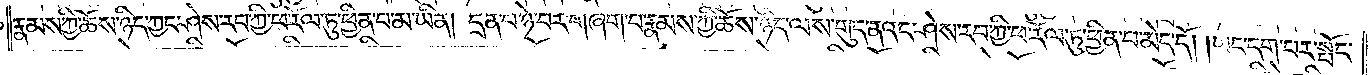རྣམས་ཀྱི་ཆོས་ཉིད་ཀྱང་ཤེས་རབ་ཀྱི་ཕ་རོལ་ཏུ་ཕྱིན་པ་མ་ཡིན། དྲན་པ་ཉེ་བར་བཞག་པ་རྣམས་ཀྱི་ཆོས་ཉིད་ལས་གུད་ནའང་ཤེས་རབ་ཀྱི་ཕ་རོལ་ཏུ་ཕྱིན་པ་མེད་དོ། །ཡང་དག་པར་སྤོང་
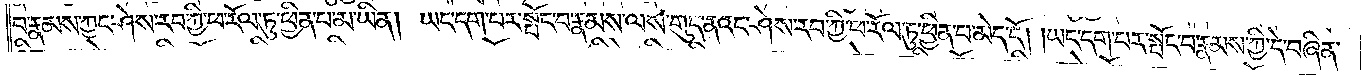བ་རྣམས་ཀྱང་ཤེས་རབ་ཀྱི་ཕ་རོལ་ཏུ་ཕྱིན་པ་མ་ཡིན། ཡང་དག་པར་སྤོང་བ་རྣམས་ལས་གུད་ནའང་ཤེས་རབ་ཀྱི་ཕ་རོལ་ཏུ་ཕྱིན་པ་མེད་དོ། །ཡང་དག་པར་སྤོང་བ་རྣམས་ཀྱི་དེ་བཞིན་
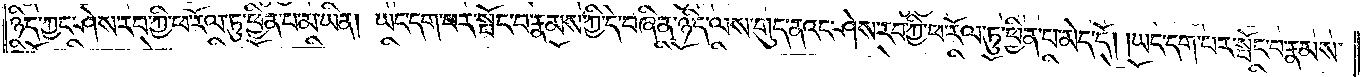ཉིད་ཀྱང་ཤེས་རབ་ཀྱི་ཕ་རོལ་ཏུ་ཕྱིན་པ་མ་ཡིན། ཡང་དག་པར་སྤོང་བ་རྣམས་ཀྱི་དེ་བཞིན་ཉིད་ལས་གུད་ནའང་ཤེས་རབ་ཀྱི་ཕ་རོལ་ཏུ་ཕྱིན་པ་མེད་དོ། །ཡང་དག་པར་སྤོང་བ་རྣམས་
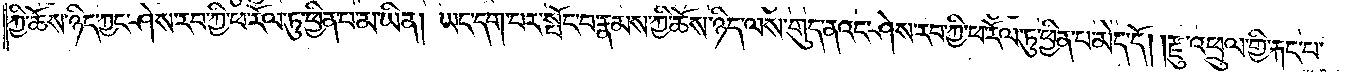ཀྱི་ཆོས་ཉིད་ཀྱང་ཤེས་རབ་ཀྱི་ཕ་རོལ་ཏུ་ཕྱིན་པ་མ་ཡིན། ཡང་དག་པར་སྤོང་བ་རྣམས་ཀྱི་ཆོས་ཉིད་ལས་གུད་ནའང་ཤེས་རབ་ཀྱི་ཕ་རོལ་ཏུ་ཕྱིན་པ་མེད་དོ། །རྫུ་འཕྲུལ་གྱི་རྐང་པ་
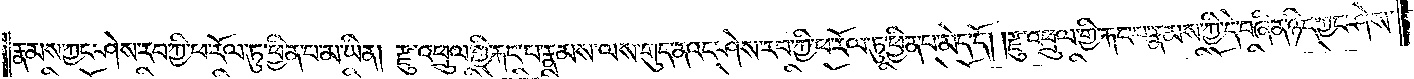རྣམས་ཀྱང་ཤེས་རབ་ཀྱི་ཕ་རོལ་ཏུ་ཕྱིན་པ་མ་ཡིན། རྫུ་འཕྲུལ་གྱི་རྐང་པ་རྣམས་ལས་གུད་ནའང་ཤེས་རབ་ཀྱི་ཕ་རོལ་ཏུ་ཕྱིན་པ་མེད་དོ། །རྫུ་འཕྲུལ་གྱི་རྐང་པ་རྣམས་ཀྱི་དེ་བཞིན་ཉིད་ཀྱང་ཤེས་
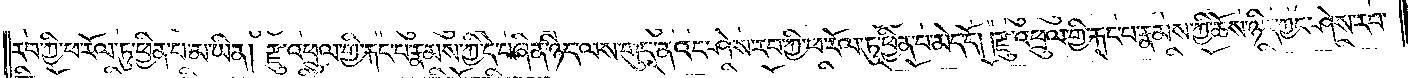རབ་ཀྱི་ཕ་རོལ་ཏུ་ཕྱིན་པ་མ་ཡིན། རྫུ་འཕྲུལ་གྱི་རྐང་པ་རྣམས་ཀྱི་དེ་བཞིན་ཉིད་ལས་གུད་ནའང་ཤེས་རབ་ཀྱི་ཕ་རོལ་ཏུ་ཕྱིན་པ་མེད་དོ། །རྫུ་འཕྲུལ་གྱི་རྐང་པ་རྣམས་ཀྱི་ཆོས་ཉིད་ཀྱང་ཤེས་རབ་
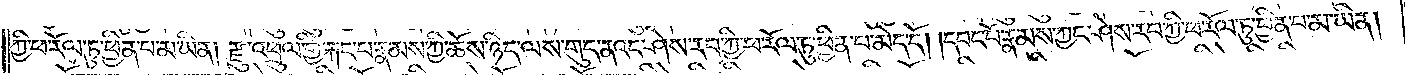ཀྱི་ཕ་རོལ་ཏུ་ཕྱིན་པ་མ་ཡིན། རྫུ་འཕྲུལ་གྱི་རྐང་པ་རྣམས་ཀྱི་ཆོས་ཉིད་ལས་གུད་ནའང་ཤེས་རབ་ཀྱི་ཕ་རོལ་ཏུ་ཕྱིན་པ་མེད་དོ། །དབང་པོ་རྣམས་ཀྱང་ཤེས་རབ་ཀྱི་ཕ་རོལ་ཏུ་ཕྱིན་པ་མ་ཡིན།
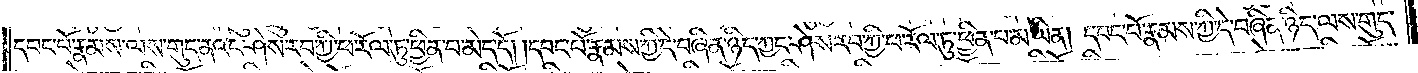དབང་པོ་རྣམས་ལས་གུད་ནའང་ཤེས་རབ་ཀྱི་ཕ་རོལ་ཏུ་ཕྱིན་པ་མེད་དོ། །དབང་པོ་རྣམས་ཀྱི་དེ་བཞིན་ཉིད་ཀྱང་ཤེས་རབ་ཀྱི་ཕ་རོལ་ཏུ་ཕྱིན་པ་མ་ཡིན། དབང་པོ་རྣམས་ཀྱི་དེ་བཞིན་ཉིད་ལས་གུད་
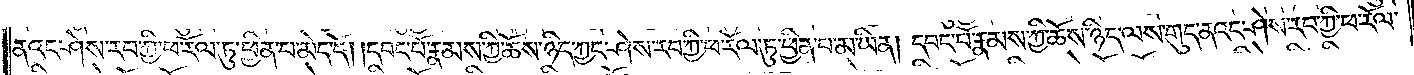ནའང་ཤེས་རབ་ཀྱི་ཕ་རོལ་ཏུ་ཕྱིན་པ་མེད་དོ། །དབང་པོ་རྣམས་ཀྱི་ཆོས་ཉིད་ཀྱང་ཤེས་རབ་ཀྱི་ཕ་རོལ་ཏུ་ཕྱིན་པ་མ་ཡིན། དབང་པོ་རྣམས་ཀྱི་ཆོས་ཉིད་ལས་གུད་ནའང་ཤེས་རབ་ཀྱི་ཕ་རོལ་
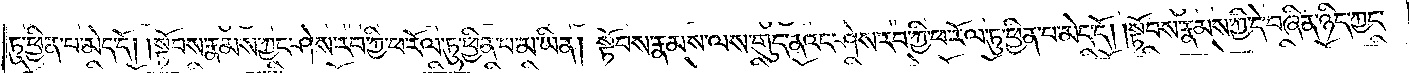ཏུ་ཕྱིན་པ་མེད་དོ། །སྟོབས་རྣམས་ཀྱང་ཤེས་རབ་ཀྱི་ཕ་རོལ་ཏུ་ཕྱིན་པ་མ་ཡིན། སྟོབས་རྣམས་ལས་གུད་ནའང་ཤེས་རབ་ཀྱི་ཕ་རོལ་ཏུ་ཕྱིན་པ་མེད་དོ། །སྟོབས་རྣམས་ཀྱི་དེ་བཞིན་ཉིད་ཀྱང་
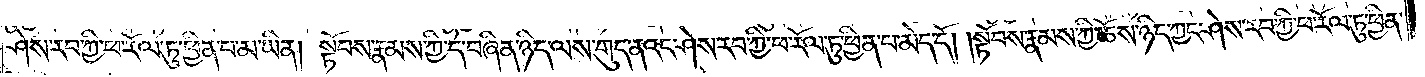ཤེས་རབ་ཀྱི་ཕ་རོལ་ཏུ་ཕྱིན་པ་མ་ཡིན། སྟོབས་རྣམས་ཀྱི་དེ་བཞིན་ཉིད་ལས་གུད་ནའང་ཤེས་རབ་ཀྱི་ཕ་རོལ་ཏུ་ཕྱིན་པ་མེད་དོ། །སྟོབས་རྣམས་ཀྱི་ཆོས་ཉིད་ཀྱང་ཤེས་རབ་ཀྱི་ཕ་རོལ་ཏུ་ཕྱིན་
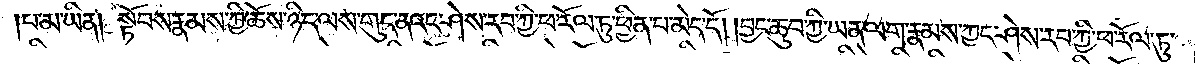པ་མ་ཡིན། སྟོབས་རྣམས་ཀྱི་ཆོས་ཉིད་ལས་གུད་ནའང་ཤེས་རབ་ཀྱི་ཕ་རོལ་ཏུ་ཕྱིན་པ་མེད་དོ། །བྱང་ཆུབ་ཀྱི་ཡན་ལག་རྣམས་ཀྱང་ཤེས་རབ་ཀྱི་ཕ་རོལ་ཏུ་
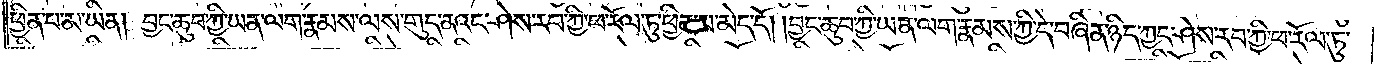ཕྱིན་པ་མ་ཡིན། བྱང་ཆུབ་ཀྱི་ཡན་ལག་རྣམས་ལས་གུད་ནའང་ཤེས་རབ་ཀྱི་ཕ་རོལ་ཏུ་ཕྱིན་པ་མེད་དོ། །བྱང་ཆུབ་ཀྱི་ཡན་ལག་རྣམས་ཀྱི་དེ་བཞིན་ཉིད་ཀྱང་ཤེས་རབ་ཀྱི་ཕ་རོལ་ཏུ་
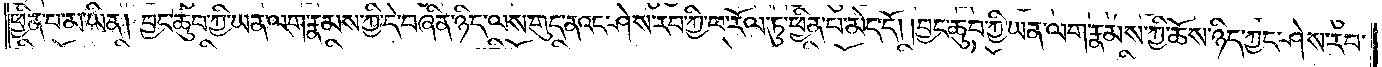ཕྱིན་པ་མ་ཡིན། བྱང་ཆུབ་ཀྱི་ཡན་ལག་རྣམས་ཀྱི་དེ་བཞིན་ཉིད་ལས་གུད་ནའང་ཤེས་རབ་ཀྱི་ཕ་རོལ་ཏུ་ཕྱིན་པ་མེད་དོ། །བྱང་ཆུབ་ཀྱི་ཡན་ལག་རྣམས་ཀྱི་ཆོས་ཉིད་ཀྱང་ཤེས་རབ་
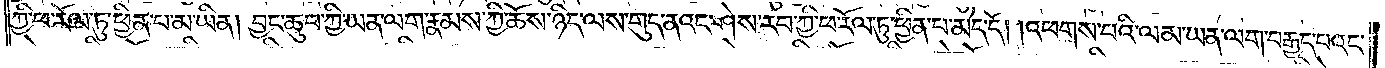ཀྱི་ཕ་རོལ་ཏུ་ཕྱིན་པ་མ་ཡིན། བྱང་ཆུབ་ཀྱི་ཡན་ལག་རྣམས་ཀྱི་ཆོས་ཉིད་ལས་གུད་ནའང་ཤེས་རབ་ཀྱི་ཕ་རོལ་ཏུ་ཕྱིན་པ་མེད་དོ། །འཕགས་པའི་ལམ་ཡན་ལག་བརྒྱད་པའང་
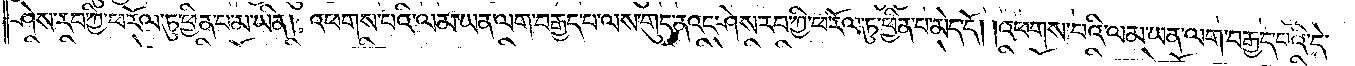ཤེས་རབ་ཀྱི་ཕ་རོལ་ཏུ་ཕྱིན་པ་མ་ཡིན། འཕགས་པའི་ལམ་ཡན་ལག་བརྒྱད་པ་ལས་གུད་ནའང་ཤེས་རབ་ཀྱི་ཕ་རོལ་ཏུ་ཕྱིན་པ་མེད་དོ། །འཕགས་པའི་ལམ་ཡན་ལག་བརྒྱད་པའི་དེ་
